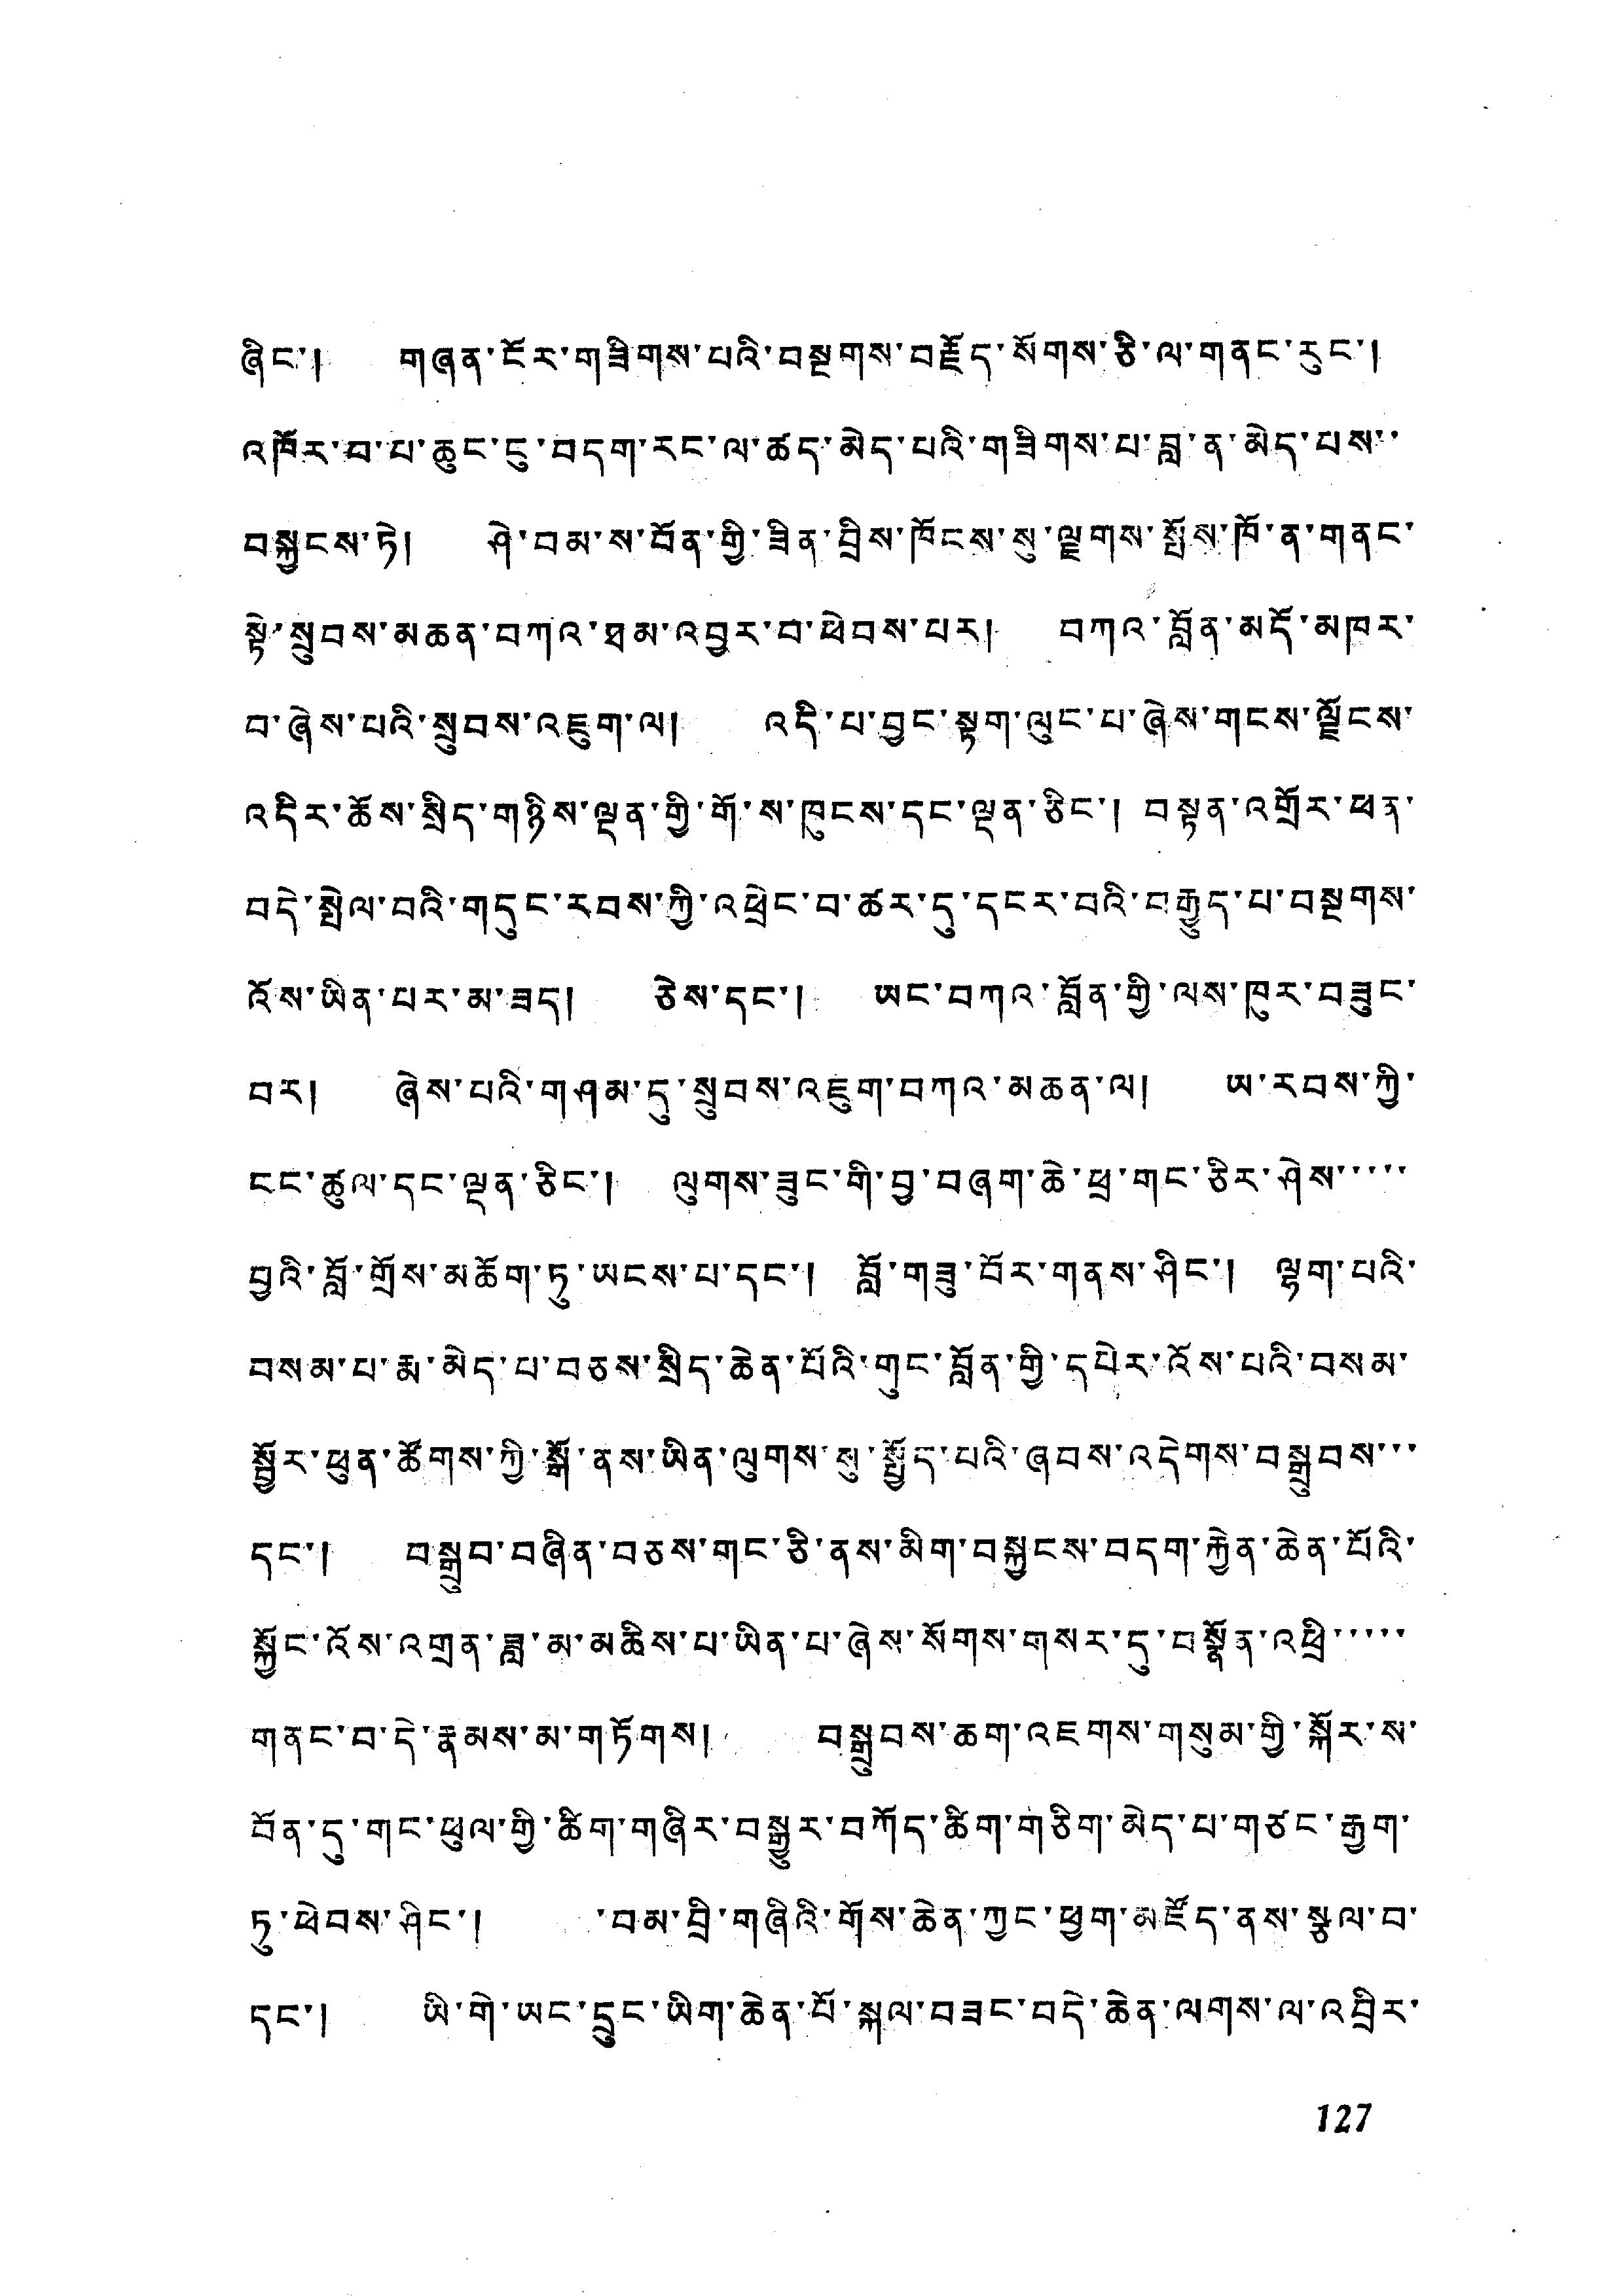ཞིང་། གཞན་ངོར་གཟིགས་པའི་བསྔགས་བརྗོད་སོགས་ཅི་ལ་གནང་རུང་།
འཁོར་བ་པ་ཆུང་ངུ་བདག་རང་ལ་ཚད་མེད་པའི་གཟིགས་པ་བླ་ན་མེད་པས་་
བསྐྱངས་ཏེ། ཤེ་བམ་ས་བོན་གྱི་ཟིན་བྲིས་ཁོངས་སུ་ལྗགས་སྤོས་ཁོ་ན་གནང་
སྟེ་སྲུབས་མཆན་བཀའ་ཐམ་འབྱར་བ་ཕེབས་པར། བཀའ་བློན་མདོ་མཁར་
བ་ཞེས་པའི་སུབས་འཇུག་ལ། འདི་པ་བྱང་སྟག་ལུང་པ་ཞེས་གངས་ལྗོངས་
འདིར་ཆོས་སྲིད་གཉིས་ལྡན་གྱི་གོ་ས་ཁུངས་དང་ལྡན་ཅིང་། བསྟན་འགྲོར་ཕན་
བདེ་སྤེལ་བའི་གདུང་རབས་ཀྱི་འཕྲེང་བ་ཚར་དུ་དངར་བའི་བརྒྱུད་པ་བསྔགས་
འོས་ཡིན་པར་མ་ཟད། ཅེས་དང་། ཡང་བཀའ་བློན་གྱི་ལས་ཁུར་བཟུང་
བར། ཞེས་པའི་གཤམ་དུ་སྲུབས་འཇུག་བཀའ་མཆན་ལ། ཡ་རབས་ཀྱི་
ངང་ཚུལ་དང་ལྡན་ཅིང་། ལུགས་ཟུང་གི་བྱ་བཞག་ཆེ་ཕྲ་གང་ཅིར་ཤེས་་་་་
བྱའི་བློ་གྲོས་མཆོག་ཏུ་ཡངས་པ་དང་། བློ་གཟུ་བོར་གནས་ཤིང་། ལྷག་པའི་
བསམ་པ་རྨ་མེད་པ་བཅས་སྲིད་ཆེན་པོའི་གུང་བློན་གྱི་དཔེར་འོས་པའི་བསམ་
སྦྱོར་ཕུན་ཚོགས་ཀྱི་སྒོ་ནས་ཡིན་ལུགས་སུ་སྤྱོད་པའི་ཞབས་འདེགས་བསྒྲུབས་་་
དང་། བསྒྲུབ་བཞིན་བཅས་གང་ཅི་ནས་མིག་བསྐྱངས་བདག་རྐྱེན་ཆེན་པོའི་
སྐྱོང་འོས་འགྲན་བླ་མ་མཆིས་པ་ཡིན་པ་ཞེས་སོགས་གསར་དུ་བསྣོན་འཕྲི་་་་་
གནང་བ་དེ་རྣམས་མ་གཏོགས། བསྒྲུབས་ཆག་འཇགས་གསུམ་གྱི་སྐོར་ས་
བོན་དུ་གང་ཕུལ་གྱི་ཚིག་གཞིར་བསྒྱུར་བཀོད་ཚིག་གཅིག་མེད་པ་གཙང་རྒྱག་
ཏུ་ཕེབས་ཤིང་། བམ་བྲི་གཞིའི་གོས་ཆེན་ཀྱང་ཕྱག་མཛོད་ནས་སྩལ་བ་
དང་། ཡི་གེ་ཡང་དྲུང་ཡིག་ཆེན་པོ་སྐལ་བཟང་བདེ་ཆེན་ལགས་ལ་འབྲིར་
127
